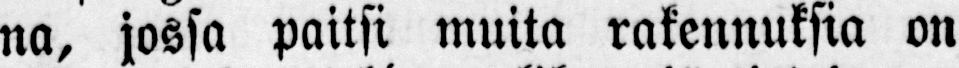na, jossa paitsi muita rakennuksia on
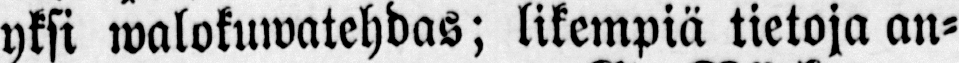yksi walokuwatehdas; likempiä tietoja an-
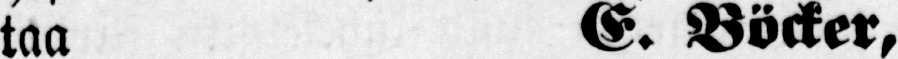taa E. Böcker,
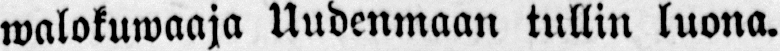walokuwaaja Uudenmaan tullin luona.
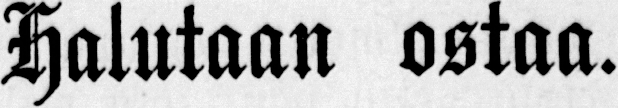Halutaan ostaa.
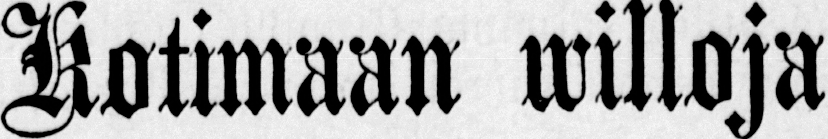Kotimaan willoja
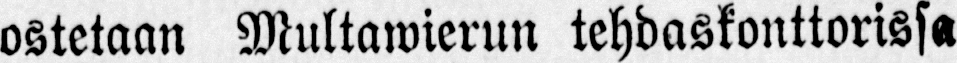ostetaan Multawierun tehdaskonttorissa
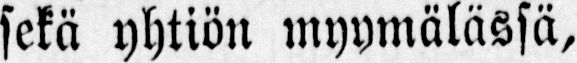sekä yhtiön myymälässä.
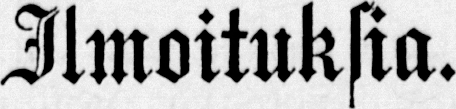Ilmoituksia.
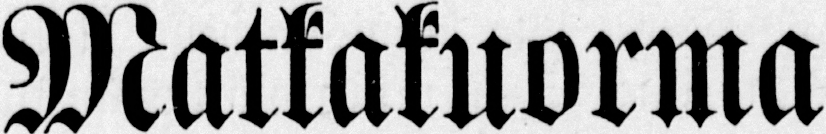Matkakuorma
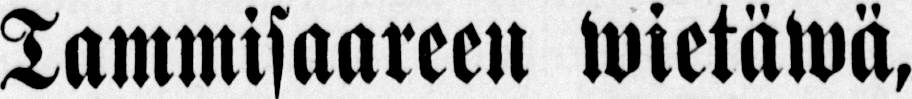Tammisaareen wietäwä,
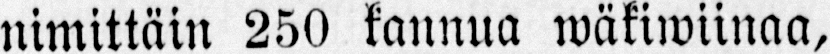nimittäin 250 kannua wäkiwiinaa,
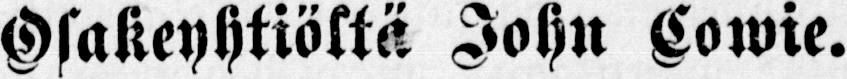Osakeyhtiöltä John Cowie.
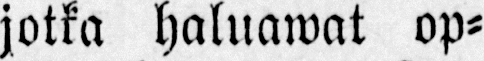4 tyttöä, jotka haluawat op-
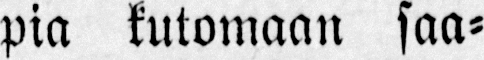pia kutomaan saa-
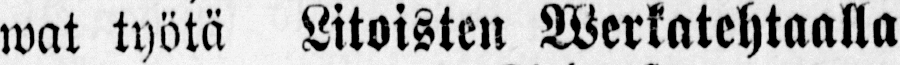wat työtä Litoisten Werkatehtaalla
